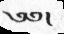༄༅།
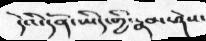དེའི་དོན་ཡིད་གྱི་རྣམ་ཤེས་
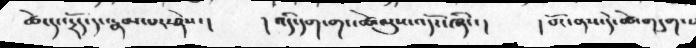ཚེ་དང་དྲོད་དང་རྣམ་པར་ཤེས་།   །འདི་དག་གང་ཚེ་ལུས་འདོར་ཞིང་།   །བོར་ནས་དེ་ཚེ་གདུག་པ་
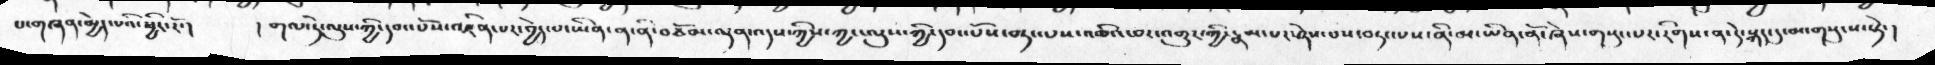པ་གཞན་མྱེད་པའི་ཕྱིར་རོ་།   །གལ་ཏེ་ལུས་ཀྱི་དབང་པོས་འཛིན་པར་བྱེད་པ་ཡིན་ན་ནི་བཅོམ་ལྡན་འདས་ཀྱིས་ཀྱང་ལུས་ཀྱི་དབང་པོས་བཏང་པས་འཆིའ་བར་འགྱུར་ཀྱི་རྣམ་པར་ཤེས་པས་བཏང་པས་ནི་མ་ཡིན་ནོ་ཞེས་གསུང་པར་རིགས་ན་དེ་སྐད་དུ་མ་གསུངས་སྟེ་།
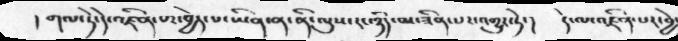།གལ་ཏེ་དེ་འཛིན་པར་བྱེད་པ་ཡིན་ན་ནི་ལུས་རང་ཉིད་མ་ཟིན་པར་འགྱུར་ཏེ་།   དེ་ལ་འཛིན་པར་བྱེ་
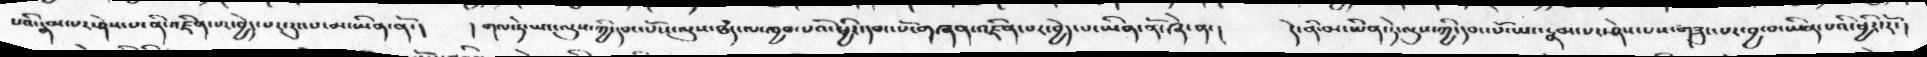པའི་རྣམ་པར་ཤེས་པ་ནི་འཛིན་པར་བྱེད་པར་རུང་པ་མ་ཡིན་ནོ་།   །གལ་ཏེ་ཡང་ལུས་ཀྱི་དབང་པོས་ལུས་ཐདཾ་མ་ཁྱབ་པའི་ཕྱིར་དབང་པོ་གཞན་འཛིན་པར་བྱེད་པ་ཡིན་ནོ་ཞེ་ན་།    དེ་ནི་མ་ཡིན་དེ་ལུས་ཀྱི་དབང་པོ་ཡང་རྣམ་པར་ཤེས་པས་གཟུང་པར་བྱ་བ་ཡིན་པའི་ཕྱིར་རོ་།
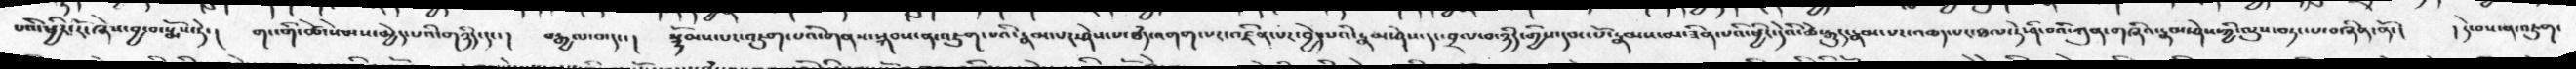པའི་ཕྱིར་རོ་ཞེས་བྱ་བ་སྨོས་སྟེ་།  གང་གི་ཚེ་སེམས་མྱེད་པའི་གཉིད་དང་།  བརྒྱལ་བ་དང་།  སྙོམས་པར་འཇུག་པའི་གནས་སྐབས་ན་འཇུག་པའི་རྣམ་པར་ཤེས་པ་ཐདཾ་འགག་པར་འཛིན་པར་བྱེད་པའི་རྣམ་ཤེས་དང་བྲལ་བ་ཉིད་གྱིས་དམ་པོ་རྣམས་མ་ཟིན་པའི་ཕྱིར་དེའི་ཚེ་རྒྱུད་རྣམ་པར་འཆད་པར་ཐལ་ཏེ་ཤི་བའི་ཀུན་གཞིའ་རྣམ་ཤེས་ཀྱི་ལུས་བཏང་པ་བཞིན་ནོ་།  །དེ་བས་ན་འཇུག་
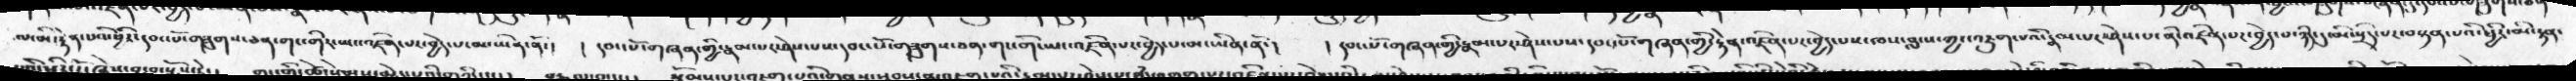ལ་མི་རྟེན་པའི་ཕྱིར་དབང་པོ་གཟུགས་ཅན་གང་གིར་ཡང་འཛིན་པར་བྱེད་པ་མ་ཡིན་ནོ་།  །དབང་པོ་གཞན་གྱི་རྣམ་པར་ཤེས་པས་དབང་པོ་གཟུགས་ཅན་གང་གི་ཡང་འཛིན་པར་བྱེད་པ་མ་ཡིན་ནོ་།    །དབང་པོ་གཞན་གྱི་རྣམ་པར་ཤེས་པས་དབང་པོ་གཞན་གྱི་རྟེན་འཛིན་པར་བྱེད་པས་ཁས་བླངས་ཀྱང་འཇུག་པའི་རྣམ་པར་ཤེས་པ་ནི་འཛིན་པར་བྱེད་པ་ཉིད་དུ་མི་སྲིད་པར་བསྟན་པའི་ཕྱིར་མི་རྟན་
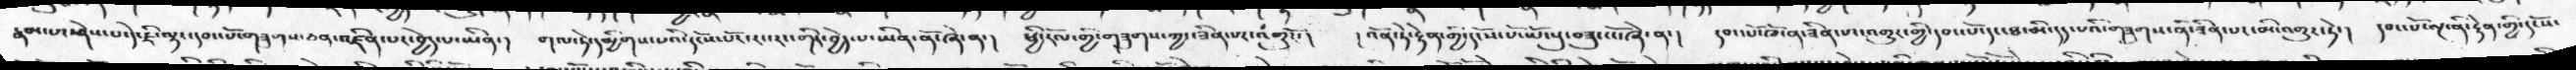རྣམ་པར་ཤེས་པ་དེ་ཇི་ལྟར་དབང་པོ་གཟུགས་ཅན་འཛིན་པར་བྱེད་པ་ཡིན་།   གལ་ཏེ་དམྱིགས་པའི་དངོས་པོར་རང་རང་གིར་བྱེད་པ་ཡིན་ནོ་ཞེ་ན་།  ཕྱི་རོལ་གྱི་གཟུགས་ཀྱང་ཟིན་པར་འགྱུརོ་།   ། འོན་ཏེ་རྟེན་གྱི་དངོས་པོ་ཡོངསུ་བཟུང་ངོ་ཞེ་ན་།  དབང་པོ་ཁོ་ན་ཟིན་པར་འགྱུར་གྱི་དབང་པོ་དང་ཐ་མི་དད་པའི་གཟུགས་ནི་ཟིན་པར་མི་འགྱུར་ཏེ་།   དབང་པོ་ལྔ་ནི་རྟེན་གྱི་དངོས་
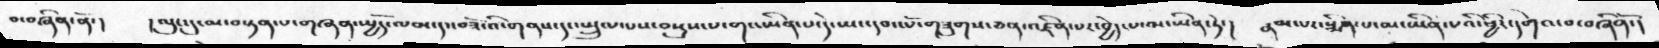བ་བཞིན་ནོ་།  །ལུང་དུ་མ་བསྟན་པ་གཞན་སྤྱོད་ལམ་དང་བཟོ་འི་གནས་དང་སྤྲུལ་པས་བསྡུས་པ་གང་ཡིན་པ་དེ་ཡང་དབང་པོ་གཟུགས་ཅན་འཛིན་པར་བྱེད་པ་མ་ཡིན་ཏེ་།   རྣམ་པར་སྨིན་པ་མ་ཡིན་པའི་ཕྱིར་དགེའ་བ་བཞིནོ་།
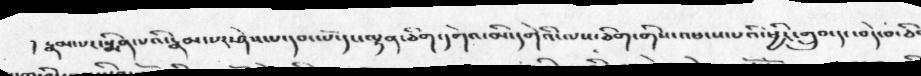། རྣམ་པར་སྨིན་པའི་རྣམ་པར་ཤེས་པ་དབང་པོ་དང་ལྷན་ཅིག་དགེའ་མི་དགེའི་ལས་ཅིག་གིས་འཕངས་པའི་ཕྱིར་གྲུབ་དང་བདེ་བ་ཅི
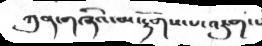ཀུན་གཞིའ་མ་རྟོགས་པ་འཇུག་པ
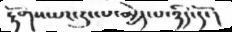རྟོགས་པར་རུང་པ་མྱེད་པ་ཉིད་དོ་།
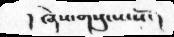།  ཞེས་གསུངས་སོ་།
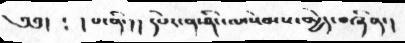༄༅།  ༴  །པ་ནི་།།  དཔེར་ན་ཤིང་ལ་སེམས་མྱེད་བཞིན་།
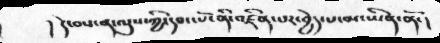།དེ་བས་ན་ལུས་ཀྱི་དབང་པོ་ནི་འཛིན་པར་བྱེད་པ་མ་ཡིན་ནོ་།
